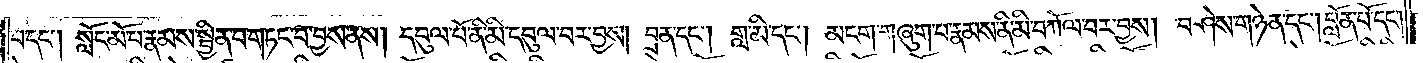པ་དང༌། སློང་མོ་པ་རྣམས་སྦྱིན་པ་གཏང་བ་བྱས་ནས། དབུལ་པོ་ནི་མི་དབུལ་བར་བྱས། བྲན་དང༌། གླ་མི་དང༌། མངག་གཞུག་པ་རྣམས་ནི་མི་བཀོལ་བར་བྱས། བཤེས་གཉེན་དང༌། བློན་པོ་དང༌།
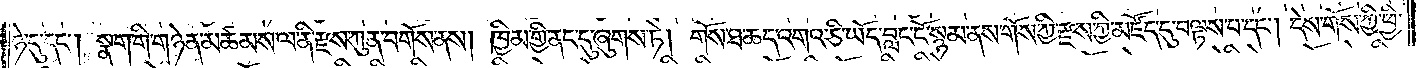ཉེ་དུ་དང༌། སྣག་གི་གཉེན་མཚམས་ལ་ནི་རྫས་ཀུན་བགོས་ནས། ཁྱིམ་གྱི་ནང་དུ་ཞུགས་ཏེ། གོས་ཐ་ཆད་འགའ་ཅི་ཡོད་བླང་ངོ་སྙམ་ནས་གོས་ཀྱི་རྫས་ཀྱི་མཛོད་དུ་བལྟས་པ་དང༌། དེས་གོས་ཀྱི་ཕྱི་
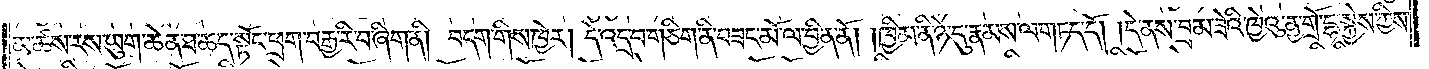མ་ཚས་རས་ཡུག་ཆེན་ཐ་ཆད་སྟོང་ཕྲག་བརྒྱ་རི་བ་ཞིག་ནི། བདག་གིས་ཁྱེར། དེ་འདྲ་བ་གཅིག་ནི་བཟང་མོ་ལ་བྱིན་ནོ། །ཁྱིམ་ནི་ཉེ་དུ་རྣམས་ལ་གཏད་དོ། །དེ་ནས་བྲམ་ཟེའི་ཁྱེའུ་ནྱ་གྲོ་དྷ་སྐྱེས་ཀྱིས་
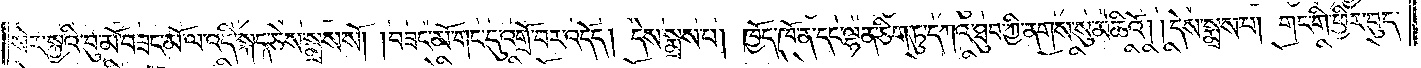སེར་སྐྱའི་བུ་མོ་བཟང་མོ་ལ་འདི་སྐད་ཅེས་སྨྲས་སོ། །བཟང་མོ་གང་དུ་འགྲོ་བར་འདོད། དེས་སྨྲས་པ། ཁྱོད་ཁོ་ན་དང་ལྷན་ཅིག་ཏུ་དཀའ་ཐུབ་ཀྱི་ནགས་སུ་མཆིའོ། །དེས་སྨྲས་པ། གང་གི་ཕྱིར་བུད་
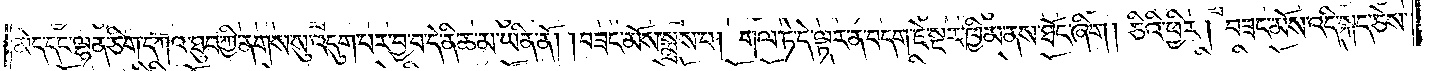མེད་དང་ལྷན་ཅིག་དཀའ་ཐུབ་ཀྱི་ནགས་སུ་འདུག་པར་བྱ་བ་དེ་ནི་ཆ་མ་ཡིན་ནོ། །བཟང་མོས་སྨྲས་པ། གལ་ཏེ་དེ་ལྟར་ན་བདག་ཇི་སྔར་ཁྱིམ་ནས་ཐོང་ཞིག། །ཅིའི་ཕྱིར། བཟང་མོས་འདི་སྐད་ཅེས་
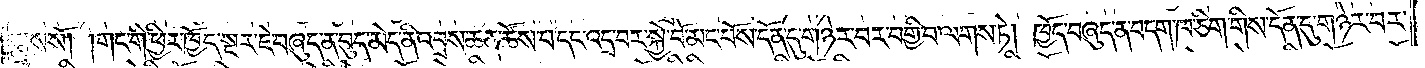སྨྲས་སོ། །གང་གི་ཕྱིར་ཁྱོད་སྔར་ཇེ་བཞུད་ན་བུད་མེད་ནི་འབྲས་ཆན་ཚོས་པ་དང་འདྲ་བར་སྐྱེ་བོ་མང་པོས་དོན་དུ་གཉེར་བར་བགྱི་བ་ལགས་ཏེ། ཁྱོད་བཞུད་ན་བདག་ཁ་ཅིག་གིས་དོན་དུ་གཉེར་བར་
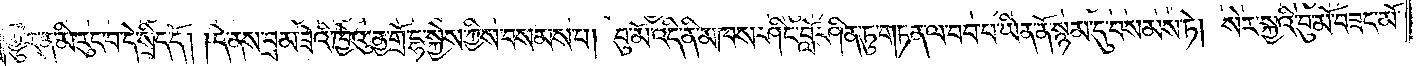གྱུར་ན་མི་རུང་བ་དེ་སྲིད་དོ། །དེ་ནས་བྲམ་ཟེའི་ཁྱེའུ་ནྱ་གྲོ་དྷ་སྐྱེས་ཀྱིས་བསམས་པ། བུ་མོ་འདི་ནི་མཁས་ཤིང་བློ་ཤིན་ཏུ་གཏན་ལ་བབ་པ་ཡིན་ནོ་སྙམ་དུ་བསམས་ཏེ། སེར་སྐྱའི་བུ་མོ་བཟང་མོ་
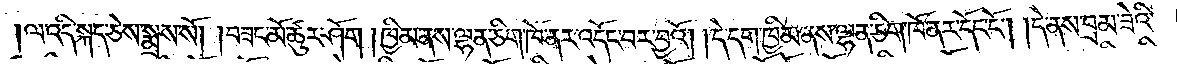ལ་འདི་སྐད་ཅེས་སྨྲས་སོ། །བཟང་མོ་ཚུར་ཤོག །ཁྱིམ་ནས་ལྷན་ཅིག་ཁོ་ནར་འདོང་བར་བྱའོ། །དེ་དག་ཁྱིམ་ནས་ལྷན་ཅིག་ཁོ་ནར་དོང་ངོ༌། །དེ་ནས་བྲམ་ཟེའི་
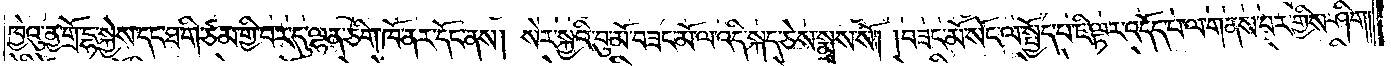ཁྱེའུ་ནྱ་གྲོ་དྷ་སྐྱེས་དང་ཐ་གི་ཙམ་གྱི་བར་དུ་ལྷན་ཅིག་ཁོ་ནར་དོང་ནས། སེར་སྐྱའི་བུ་མོ་བཟང་མོ་ལ་འདི་སྐད་ཅེས་སྨྲས་སོ། །བཟང་མོ་སོང་ལ་སྤྱོད་པ་ཇི་ལྟར་འདོད་པ་ལ་གནས་པར་གྱིས་ཤིག།
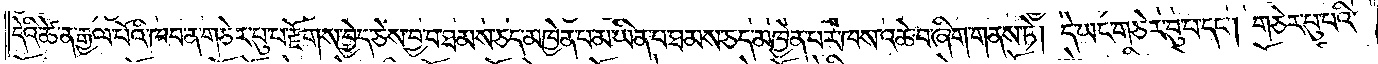དེའི་ཚེ་ན་རྒྱལ་པོའི་ཁབ་ན་གཅེར་པུ་པ་རྫོགས་བྱེད་ཅེས་བྱ་བ་ཐམས་ཅད་མཁྱེན་པ་མ་ཡིན་པ་ཐམས་ཅད་མཁྱེན་པར་ཁས་འཆེ་བ་ཞིག་གནས་ཏེ། དེ་ཡང་གཅེར་བུ་པ་དང༌། གཅེར་བུ་པའི་
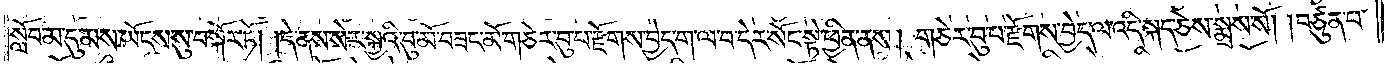སློབ་མ་དུ་མས་ཡོངས་སུ་བསྐོར་ཏོ། །དེ་ནས་སེར་སྐྱའི་བུ་མོ་བཟང་མོ་གཅེར་བུ་པ་རྫོགས་བྱེད་ག་ལ་བ་དེར་སོང་སྟེ་ཕྱིན་ནས། གཅེར་བུ་པ་རྫོགས་བྱེད་ལ་འདི་སྐད་ཅེས་སྨྲས་སོ། །བཙུན་པ་
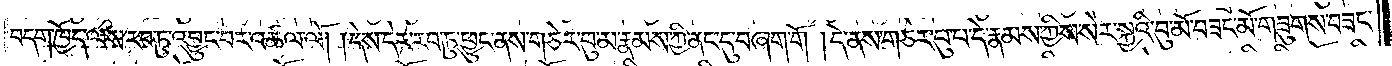བདག་ཁྱོད་ལས་རབ་ཏུ་འབྱུང་བར་འཚལ་ལོ། །དེས་དེར་རབ་ཏུ་ཕྱུང་ནས་གཅེར་བུ་མ་རྣམས་ཀྱི་ནང་དུ་བཞག་གོ །དེ་ནས་གཅེར་པུ་པ་དེ་རྣམས་ཀྱིས་སེར་སྐྱའི་བུ་མོ་བཟང་མོ་གཟུགས་བཟང་
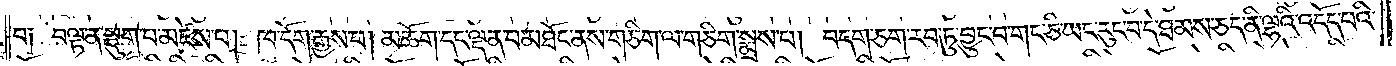བ༑ བལྟ་ན་སྡུག་པ་མཛེས་པ། ཁ་དོག་རྒྱས་པ། མཆོག་དང་ལྡན་པ་མཐོང་ནས་གཅིག་ལ་གཅིག་སྨྲས་པ། བདག་ཅག་རབ་ཏུ་བྱུང་བ་གང་ཅི་ཡང་རུང་བ་དེ་ཐམས་ཅད་ནི་ལྷའི་འདོད་པའི་
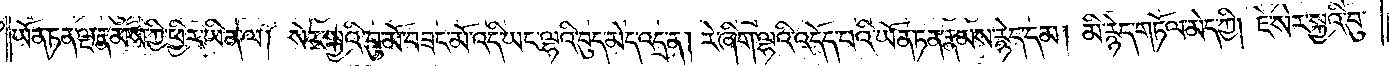ཡོན་ཏན་ལྔ་རྣམས་ཀྱི་ཕྱིར་ཡིན་ལ། སེར་སྐྱའི་བུ་མོ་བཟང་མོ་བཟང་མོ་འདི་ཡང་ལྷའི་བུད་མེད་འདྲ་ན། རེ་ཞིག་ལྷའི་འདོད་པའི་ཡོན་ཏན་རྣམས་རྙེད་དམ། མི་རྙེད་གཏོལ་མེད་ཀྱི། ཇེ་སེར་སྐྱའི་བུ་
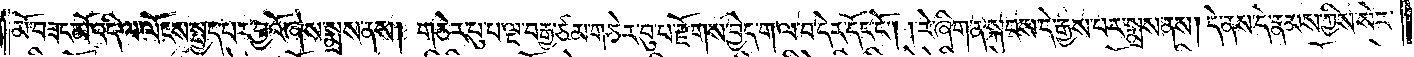མོ་བཟང་མོ་འདི་ལ་ལོངས་སྤྱོད་པར་བྱའོ་ཞེས་སྨྲས་ནས། གཅེར་པུ་པ་ལྔ་བརྒྱ་ཙམ་གཅེར་བུ་པ་རྫོགས་བྱེད་ག་ལ་བ་དེར་དོང་ངོ༌། །རེ་ཞིག་ན་སྐབས་དེ་རྒྱས་པར་སྨྲས་ནས། དེ་ནས་དེ་རྣམས་ཀྱིས་སེར་
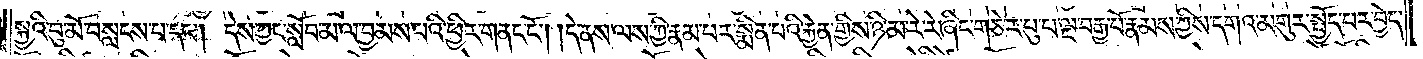སྐྱའི་བུ་མོ་བསླངས་པ་དང༌། དེས་ཀྱང་སློབ་མ་ལ་བྱམས་པའི་ཕྱིར་གནང་ངོ༌། །དེ་ནས་ལས་ཀྱི་རྣམ་པར་སྨིན་པའི་རྐྱེན་གྱིས་ཉི་མ་རེ་རེ་ཞིང་གཅེར་པུ་པ་ལྔ་བརྒྱ་པོ་རྣམས་ཀྱིས་དགའ་མགུར་སྤྱོད་པར་བྱེད་
